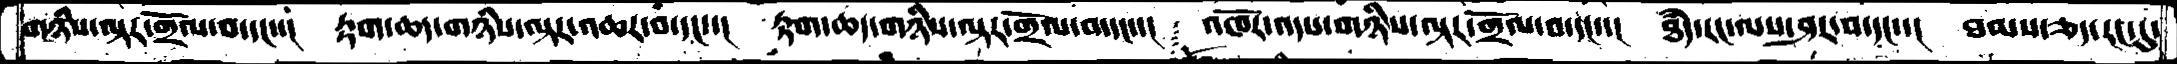གཉིས་ལྟར་གྲོལ་བ་དང་་།  རྟག་ཆདགཉིས་ལྟར་འཆར་བ་དང་་།  རྟག་ཆད་གཉིས་ལྟར་གྲོལ་བ་དང་་། འཁོར་འདས་གཉིས་ལྟར་གྲོལ་བ་དང་་།  ཐཾད་རང་ལས་ཤར་བ་དང་་།  ཐམས་ཅད་རང་དུ་
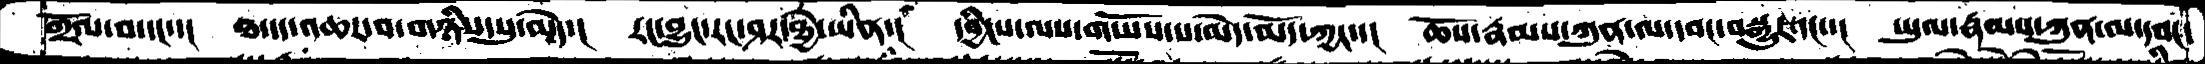གྲོལ་བ་དང་་།  ཐ་དད་འཆར་བ་གཉིས་སུ་མེད་།  རང་བྱུང་རང་ཤར་ཐྱེ་ཡིན་།  དབྱིངས་ལས་གཡོས་པ་མེད་མོད་ཀྱང་་།  ཆོས་རྣམས་ཀུན་ལ་དབང་བསྒྱུར་དང་་།  ཡུལ་རྣམས་ཀུན་ལ་དབང་
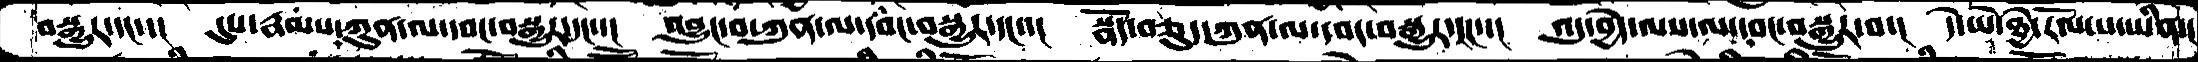བསྒྱུར་དང་་།  དུས་རྣམས་ཀུན་ལ་དབང་བསྒྱུར་དང་་།  འབྱུང་བ་ཀུན་ལ་དབང་བསྒྱུར་དང་་།  སྣོད་བཅུད་ཀུན་ལ་དབང་བསྒྱུར་དང་་།  འདུ་བྱེད་ལས་ལ་དབང་བསྒྱུར་བ་།  དེ་ཡེ་ཐྱེ་རོལ་པ་ཡིན་།
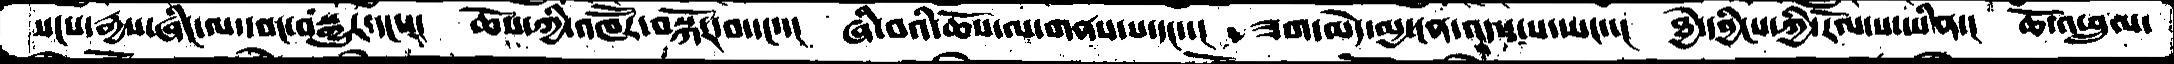སངས་རྒྱས་ཞིང་ལ་དབང་བསྒྱུར་དང་་།  ཆོས་ཀྱི་འཁཽར་བསྐོར་བ་དང་་།  ཞི་བའི་ཆོས་ལ་གནས་པ་དང་་།   ཟག་མེད་མྱ་ངན་འདས་པ་ཡང་་།  ཐྱེ་དབྱིངས་ཀྱི་རོལ་པ་ཡིན་།  ཆོ་འཕྲུལ་
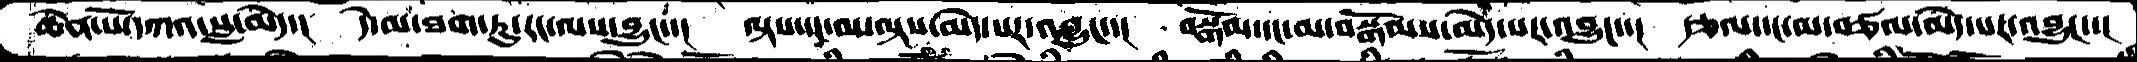ཆེན་པོ་དཀའ་སླ་མེད་།  དེ་མ་ཐག་ཏུ་རང་ལས་བྱུང་་།  ལྟས་དང་མ་ལྟས་མེད་པར་འབྱུང་་།  བསྒོམ་དང་མ་བསྒོམས་མེད་པར་འབྱུང་་།  དཅལ་དང་མ་བཙལ་མེད་པར་འབྱུང་་།
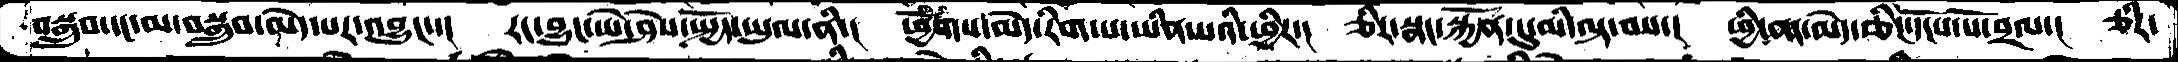བསྒྲུབ་དང་མ་བསྒྲུབ་མེད་པར་འབྱུང་་།  རང་བྱུང་ཡེ་ཤེས་སྤྱོད་ཡུལ་ནི་།   ཕྱོགས་མེད་རིག་པ་ཡིན་པའི་ཕྱིར་།  ཅིར་སྣང་སྐྱོན་དུ་མི་ལྟ་བས་།  ཕྱི་ནང་མེད་ཅིང་དངོས་པོ་བྲལ་།  ཅིར་
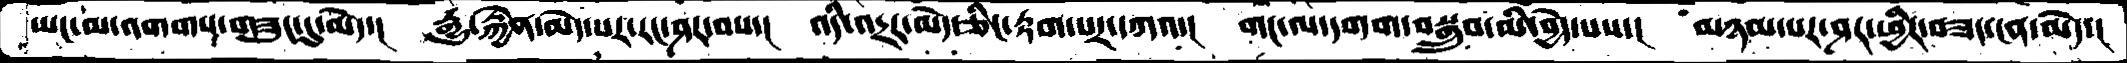ཡང་མ་འགགས་གཟུང་དུ་མེད་།  རྒྱུ་རྐྱེན་མེད་པར་རང་ཤར་བས་།  འདི་འདྲར་མེད་ཅིང་རྟག་པར་དཀའ་།  གང་ལ་དགག་བསྒྲུབ་མི་བྱེད་པས་།  མཉམ་པར་ཤར་ཕྱིར་བཟང་ངན་མེད་།
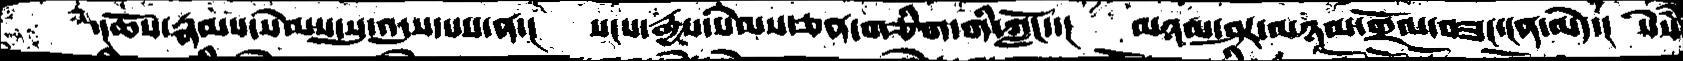་།ཆོས་རྣམས་སེམས་སུ་འདུས་པས་ན་།  སངས་རྒྱས་སེམས་ཅན་གཅིག་གི་ཀློང་་།  མཉམ་ཤར་མཉམ་གྲོལ་བཟང་ངན་མེད་།  སེཾས
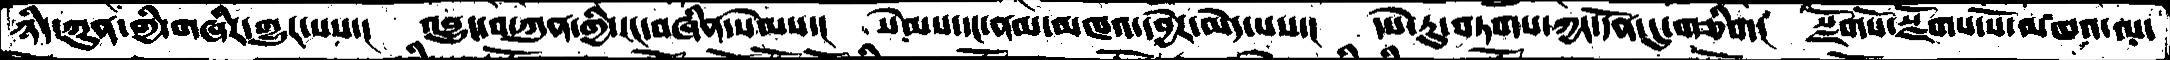ཉིད་ཀུན་གྱི་གཞིར་གྱུར་པས་།  འབྱུང་བ་ཀུན་གྱི་རང་བཞིན་སེམས་།  སེམས་དང་ནམ་མཁའ་དབྱེར་མེད་པས་།  དཔེ་རུ་བཏགས་ཀྱང་དོན་དུ་གཅིག།  སྫོགསོ་སྫོགས་སོ་མཁའ་ལ་
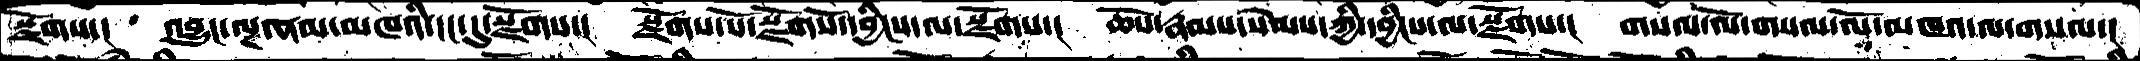སྫོགས་།   འབྱུང་ལྔ་ནམ་མཁའི་ངང་དུ་སྫོགས་།  སྫོགས་སོ་སྫོགསོ་དབྱིངས་ལ་སྫོགས་།  ཆོས་རྣམས་སེམས་ཀྱི་དབྱིངས་ལ་སྫོགས་།  གསལ་ལོ་གསལ་ལོ་མཁའ་ལ་གསལ་།
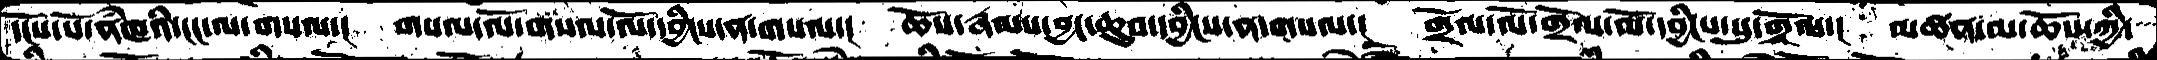དངོས་པོ་ནཾཁའི་ངང་ལ་གསལ་།  གསལ་ལོ་གསལ་ལོ་དབྱིངས་ན་གསལ་།  ཆོས་རྣམས་བྱང་ཆུབ་དབྱིངས་ན་གསལ་།  གྲོལ་ལོ་གྲོལ་ལོ་དབྱིངས་སུ་གྲོལ་།  མཚན་མ་ཆོས་ཀྱི་
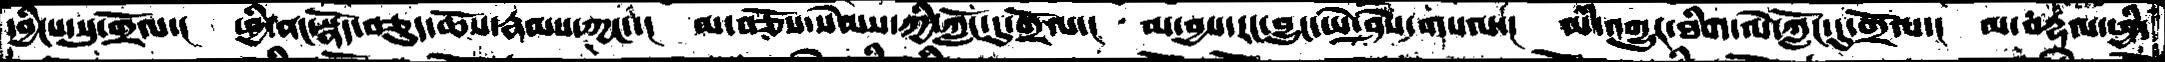དབྱིངས་སུ་གྲོལ་།  ཕྱི་ནང་སྣོད་བཅུད་ཆོས་རྣམས་ཀྱང་་།  མ་བཅོས་སེམས་ཀྱི་ཀློང་དུ་གྲོལ་།  མ་བྱས་རང་བྱུང་ཡེ་ཤེས་གསལ་།  མི་འགྱུར་ཐིག་ལེ་ཀློང་དུ་གྲོལ་།  མ་བརྡལ་ཕྱི་
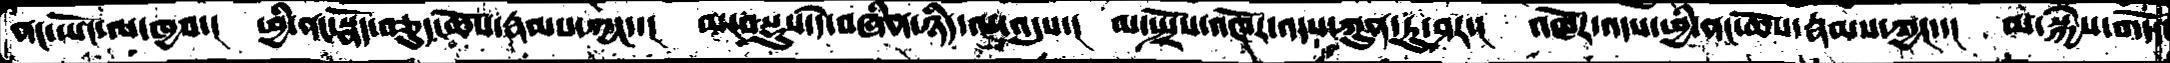ནང་ཡོང་ལ་ཁྱབ་།   ཕྱི་ནང་སྣོད་བཅུད་ཆོས་རྣམས་ཀྱང་་།  མ་བསྡུས་དེ་བཞིན་ཉིད་ལ་འདུས་།  མ་སྤྲོས་འཁོར་འདས་ཀུན་ཏུ་ཤར་།  འཁོར་འདས་ཕྱི་ནང་ཆོས་རྣམས་ཀྱང་་།  མ་སྐྱེས་གདོད་
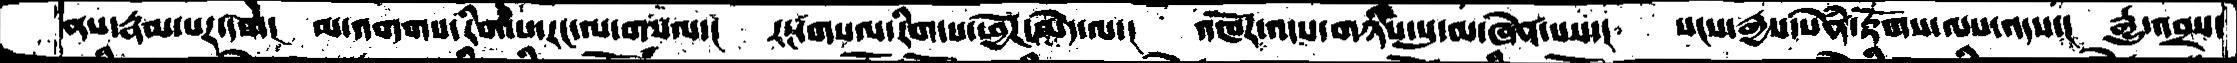ནས་རྣམ་པར་དག།  མ་འགགས་རིག་པ་རང་ལ་གསལ་།  རང་གསལ་རིག་པ་ཕྱོཌ་མེད་ལ་།  འཁོར་འདས་གཉིས་སུ་མ་ཞེན་པས་།  སངས་རྒྱས་སེཾན་རྟོགས་ལས་འདས་།  རྒྱུ་འབྲས་
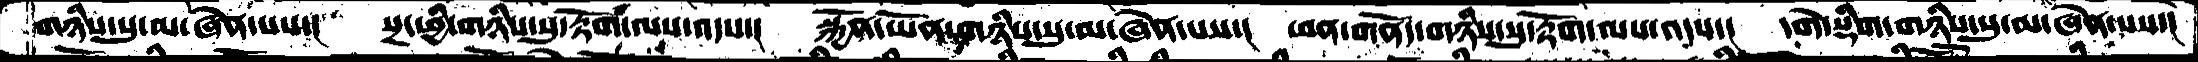གཉིས་སུ་མ་ཞེན་པས་།  སྔ་ཕྱི་གཉིས་སུ་རྟོག་ལས་འདས་།  སྐྱོན་ཡོན་གཉིས་སུ་མ་ཞེན་པས་།  ཕན་གནོད་གཉིས་སུ་རྟོག་ལས་འདས་།  དགེ་སྡིག་གཉིས་སུ་མ་ཞེན་པས་།
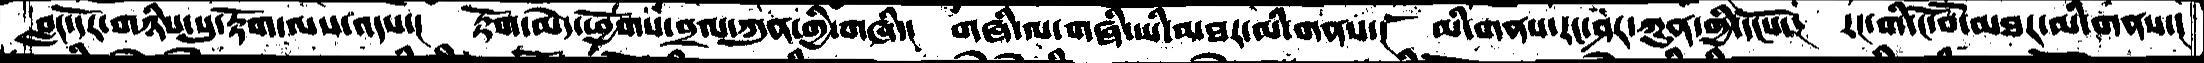བླང་དོར་གཉིས་སུ་རྟོག་ལས་འདས་།  རྟོག་མེད་ཕྱོགས་བྲལ་ཀུན་གྱི་གཞི་།  གཞི་ལ་གཞི་ཡི་མཐར་མི་གནས་།  མི་གནས་རང་ཤར་ཀུན་གྱི་དངོས་།  རང་གི་ངོ་བོ་མཐར་མི་གནས་།
